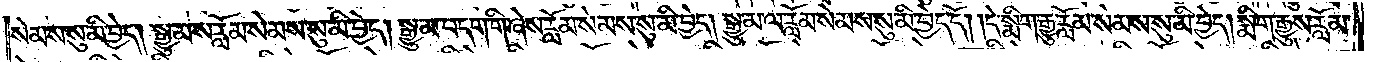སེམས་སུ་མི་བྱེད། སྒྱུ་མས་རློམ་སེམས་སུ་མི་བྱེད། སྒྱུ་མ་བདག་གི་ཞེས་རློམ་སེམས་སུ་མི་བྱེད། སྒྱུ་མ་ལ་རློམ་སེམས་སུ་མི་བྱེད་དོ། །དེ་སྨིག་རྒྱུ་རློམ་སེམས་སུ་མི་བྱེད། སྨིག་རྒྱུས་རློམ་
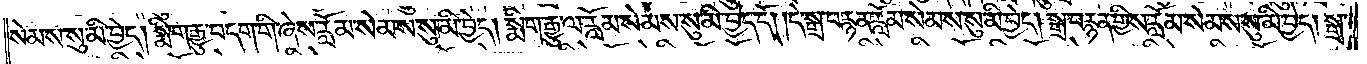སེམས་སུ་མི་བྱེད། སྨིག་རྒྱུ་བདག་གི་ཞེས་རློམ་སེམས་སུ་མི་བྱེད། སྨིག་རྒྱུ་ལ་རློམ་སེམས་སུ་མི་བྱེད་དོ། །དེ་སྒྲ་བརྙན་རློམ་སེམས་སུ་མི་བྱེད། སྒྲ་བརྙན་གྱིས་རློམ་སེམས་སུ་མི་བྱེད། སྒྲ་
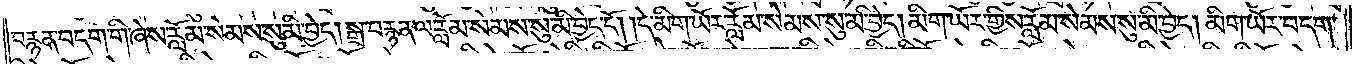བརྙན་བདག་གི་ཞེས་རློམ་སེམས་སུ་མི་བྱེད། སྒྲ་བརྙན་ལ་རློམ་སེམས་སུ་མི་བྱེད་དོ། །དེ་མིག་ཡོར་རློམ་སེམས་སུ་མི་བྱེད། མིག་ཡོར་གྱིས་རློམ་སེམས་སུ་མི་བྱེད། མིག་ཡོར་བདག་
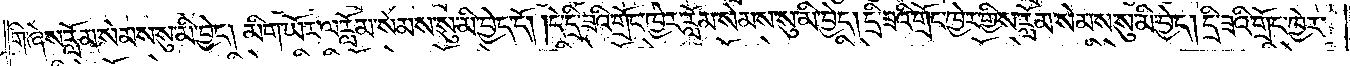གི་ཞེས་རློམ་སེམས་སུ་མི་བྱེད། མིག་ཡོར་ལ་རློམ་སེམས་སུ་མི་བྱེད་དོ། །དེ་དྲི་ཟའི་གྲོང་ཁྱེར་རློམ་སེམས་སུ་མི་བྱེད། དྲི་ཟའི་གྲོང་ཁྱེར་གྱིས་རློམ་སེམས་སུ་མི་བྱེད། དྲི་ཟའི་གྲོང་ཁྱེར་
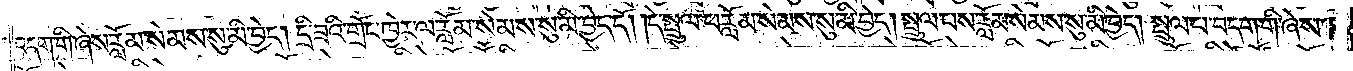བདག་གི་ཞེས་རློམ་སེམས་སུ་མི་བྱེད། དྲི་ཟའི་གྲོང་ཁྱེར་ལ་རློམ་སེམས་སུ་མི་བྱེད་དོ། །དེ་སྤྲུལ་པ་རློམ་སེམས་སུ་མི་བྱེད། སྤྲུལ་པས་རློམ་སེམས་སུ་མི་བྱེད། སྤྲུལ་པ་བདག་གི་ཞེས་
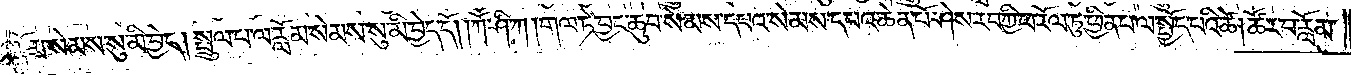རློམ་སེམས་སུ་མི་བྱེད། སྤྲུལ་པ་ལ་རློམ་སེམས་སུ་མི་བྱེད་དོ། །ཀཽ་ཤི་ཀ། གལ་ཏེ་བྱང་ཆུབ་སེམས་དཔའ་སེམས་དཔའ་ཆེན་པོ་ཤེས་རབ་ཀྱི་ཕ་རོལ་ཏུ་ཕྱིན་པ་ལ་སྤྱོད་པའི་ཚེ། ཚོར་བ་རློམ་
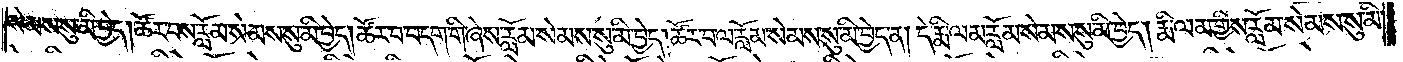སེམས་སུ་མི་བྱེད། ཚོར་བས་རློམ་སེམས་སུ་མི་བྱེད། ཚོར་བ་བདག་གི་ཞེས་རློམ་སེམས་སུ་མི་བྱེད། ཚོར་བ་ལ་རློམ་སེམས་སུ་མི་བྱེད་ན། དེ་རྨི་ལམ་རློམ་སེམས་སུ་མི་བྱེད། རྨི་ལམ་གྱིས་རློམ་སེམས་སུ་མི་
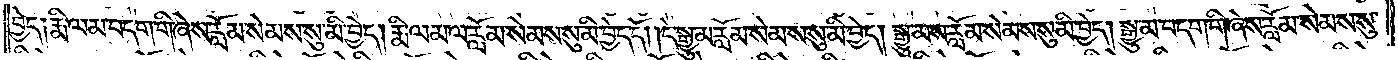བྱེད༑ རྨི་ལམ་བདག་གི་ཞེས་རློམ་སེམས་སུ་མི་བྱེད། རྨི་ལམ་ལ་རློམ་སེམས་སུ་མི་བྱེད་དོ། །དེ་སྒྱུ་མ་རློམ་སེམས་སུ་མི་བྱེད། སྒྱུ་མས་རློམ་སེམས་སུ་མི་བྱེད། སྒྱུ་མ་བདག་གི་ཞེས་རློམ་སེམས་སུ་
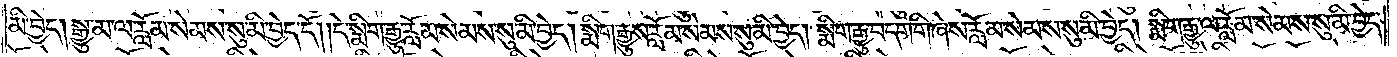མི་བྱེད། སྒྱུ་མ་ལ་རློམ་སེམས་སུ་མི་བྱེད་དོ། །དེ་སྨིག་རྒྱུ་རློམ་སེམས་སུ་མི་བྱེད། སྨིག་རྒྱུས་རློམ་སེམས་སུ་མི་བྱེད། སྨིག་རྒྱུ་བདག་གི་ཞེས་རློམ་སེམས་སུ་མི་བྱེད། སྨིག་རྒྱུ་ལ་རློམ་སེམས་སུ་མི་བྱེད་
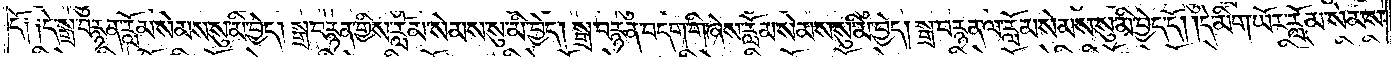དོ༑ ༑དེ་སྒྲ་བརྙན་རློམ་སེམས་སུ་མི་བྱེད། སྒྲ་བརྙན་གྱིས་རློམ་སེམས་སུ་མི་བྱེད། སྒྲ་བརྙན་བདག་གི་ཞེས་རློམ་སེམས་སུ་མི་བྱེད། སྒྲ་བརྙན་ལ་རློམ་སེམས་སུ་མི་བྱེད་དོ། །དེ་མིག་ཡོར་རློམ་སེམས་
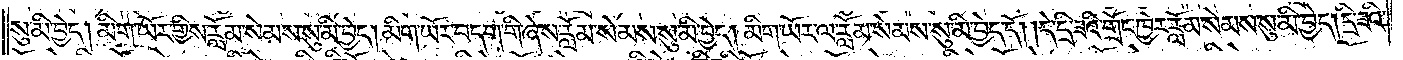སུ་མི་བྱེད། མིག་ཡོར་གྱིས་རློམ་སེམས་སུ་མི་བྱེད། མིག་ཡོར་བདག་གི་ཞེས་རློམ་སེམས་སུ་མི་བྱེད། མིག་ཡོར་ལ་རློམ་སེམས་སུ་མི་བྱེད་དོ། །དེ་དྲི་ཟའི་གྲོང་ཁྱེར་རློམ་སེམས་སུ་མི་བྱེད། དྲི་ཟའི་
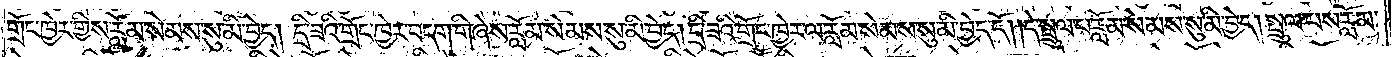གྲོང་ཁྱེར་གྱིས་རློམ་སེམས་སུ་མི་བྱེད། དྲི་ཟའི་གྲོང་ཁྱེར་བདག་གི་ཞེས་རློམ་སེམས་སུ་མི་བྱེད། དྲི་ཟའི་གྲོང་ཁྱེར་ལ་རློམ་སེམས་སུ་མི་བྱེད་དོ། །དེ་སྤྲུལ་པ་རློམ་སེམས་སུ་མི་བྱེད། སྤྲུལ་པས་རློམ་
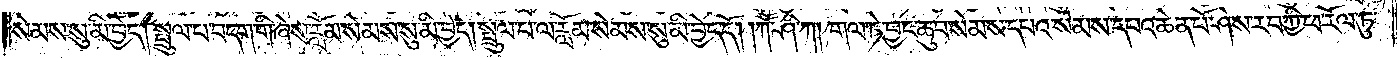སེམས་སུ་མི་བྱེད། སྤྲུལ་པ་བདག་གི་ཞེས་རློམ་སེམས་སུ་མི་བྱེད། སྤྲུལ་པ་ལ་རློམ་སེམས་སུ་མི་བྱེད་དོ། །ཀཽ་ཤི་ཀ། གལ་ཏེ་བྱང་ཆུབ་སེམས་དཔའ་སེམས་དཔའ་ཆེན་པོ་ཤེས་རབ་ཀྱི་ཕ་རོལ་ཏུ་
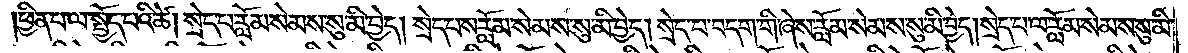ཕྱིན་པ་ལ་སྤྱོད་པའི་ཚེ། སྲེད་པ་རློམ་སེམས་སུ་མི་བྱེད། སྲེད་པས་རློམ་སེམས་སུ་མི་བྱེད། སྲེད་པ་བདག་གི་ཞེས་རློམ་སེམས་སུ་མི་བྱེད། སྲེད་པ་ལ་རློམ་སེམས་སུ་མི་
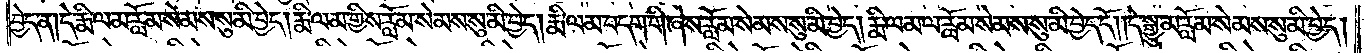བྱེད་ན། དེ་རྨི་ལམ་རློམ་སེམས་སུ་མི་བྱེད། རྨི་ལམ་གྱིས་རློམ་སེམས་སུ་མི་བྱེད། རྨི་ལམ་བདག་གི་ཞེས་རློམ་སེམས་སུ་མི་བྱེད། རྨི་ལམ་ལ་རློམ་སེམས་སུ་མི་བྱེད་དོ། །དེ་སྒྱུ་མ་རློམ་སེམས་སུ་མི་བྱེད།
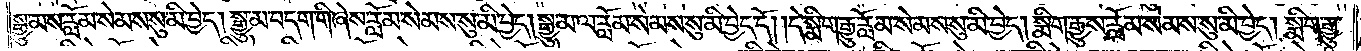སྒྱུ་མས་རློམ་སེམས་སུ་མི་བྱེད། སྒྱུ་མ་བདག་གི་ཞེས་རློམ་སེམས་སུ་མི་བྱེ། སྒྱུ་མ་ལ་རློམ་སེམས་སུ་མི་བྱེད་དོ། །དེ་སྨིག་རྒྱུ་རློམ་སེམས་སུ་མི་བྱེད། སྨིག་རྒྱུས་རློམ་སེམས་སུ་མི་བྱེད། སྨིག་རྒྱུ་
